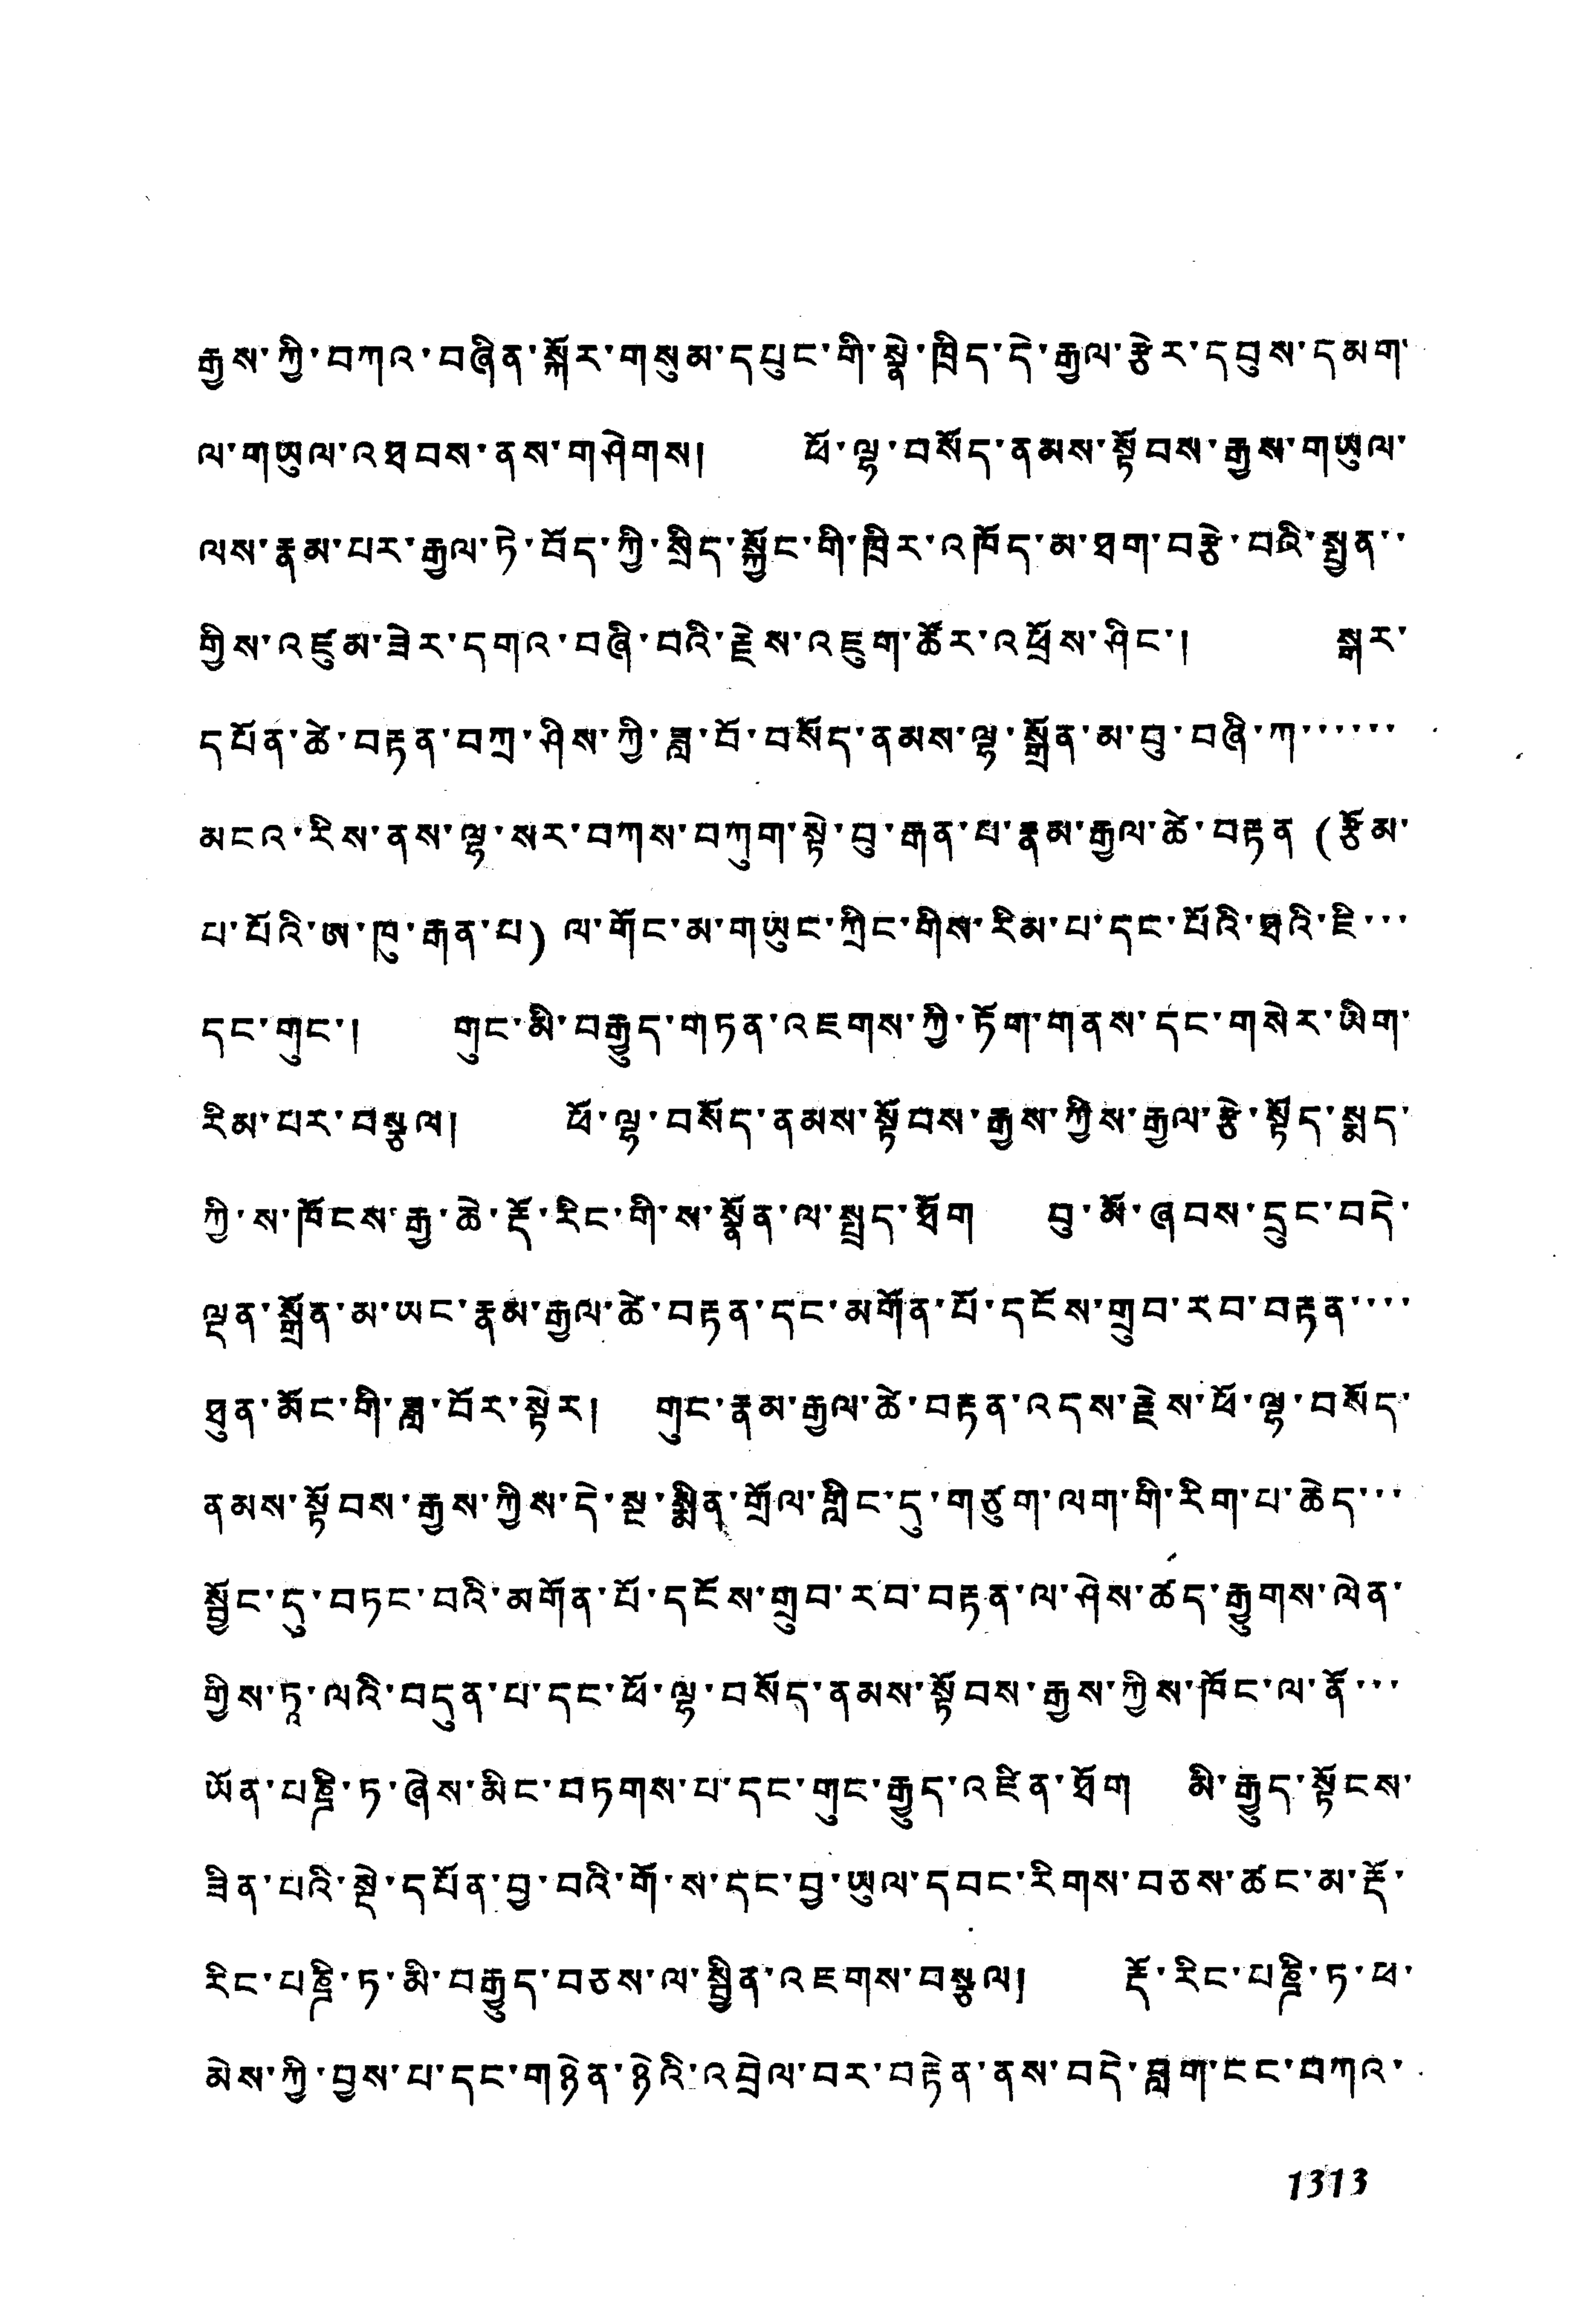རྒྱས་ཀྱི་བཀའ་བཞིན་སྐོར་གསུམ་དཔུང་གི་སྣེ་ཁྲིད་དེ་རྒྱལ་རྩེར་དབུས་དམག་
ལ་གཡུལ་འཐབས་ནས་གཤེགས། ཕོ་ལྷ་བསོད་ནམས་སྟོབས་རྒྱས་གཡུལ་
ལས་རྣམ་པར་རྒྱལ་ཏེ་བོད་ཀྱི་སྲིད་སྐྱོང་གི་ཁྲིར་འཁོད་མ་ཐག་བརྩེ་བའི་སྤྱན་
གྱིས་འཛུམ་ཟེར་དགའ་བཞི་བའི་རྗེས་འཇུག་ཚོར་འཕྲོས་ཤིང་། སྒར་
དཔོན་ཚེ་བརྟན་བཀྲ་ཤིས་ཀྱི་ཟླ་བོ་བསོད་ནྣམས་ལྷ་སྒྲོན་མ་བུ་བཞི་ཀ་་་་་་
མངའ་རིས་ནས་ལྷ་སར་བཀས་བཀུག་སྟེ་བུ་རྒན་པ་རྣམ་རྒྱལ་ཚེ་བརྟན (རྩོམ་
པ་པོའི་ཨ་ཁུ་རྒན་པ) ལ་གོང་མ་གཡུང་ཀྲིང་གིས་རིམ་པ་དང་པོའི་ཐའི་ཇི་་་
དང་གུང་། གུང་མི་བརྒྱུད་གཏན་འཇགས་ཀྱི་ཏོག་གནས་དང་གསེར་ཡིག་
རིམ་པར་བསྩལ། ཕོ་ལྷ་བསོད་ནམས་སྟོབས་རྒྱས་ཀྱིས་རྒྱལ་རྩེ་སྟོད་སྨད་
ཀྱི་ས་ཁོངས་རྒྱ་ཆེ་རྡོ་རིང་གི་ས་སྣོན་ལ་སྤྱད་ཐོག བུ་མོ་ཞབས་དྲུང་བདེ་
ལྡན་སྒྲོན་མ་ཡང་རྣམ་རྒྱལ་ཚེ་བརྟན་དང་མགོན་པོ་དངོས་གྲུབ་རབ་བརྟན་་་་
ཐུན་མོང་གི་ཟླ་བོར་སྟེར། གུང་རྣམ་རྒྱལ་ཚེ་བརྟན་འདས་རྗེས་ཕོ་ལྷ་བསོད་
ནམས་སྟོབས་རྒྱས་ཀྱིས་དེ་སྔ་སྨིན་གྲོལ་གླིང་དུ་གཙུག་ལག་གི་རིག་པ་ཆེད་་་
སྦྱོང་དུ་བཏང་བའི་མགོན་པོ་དངོས་གུབ་རབ་བརྟན་ལ་ཤེས་ཚད་རྒྱུགས་ལེན་
གྱིས་ཏཱ་ལའི་བདུན་པ་དང་ཕོ་ལྷ་བསོད་ནམས་སྟོབས་རྒྱས་ཀྱིས་ཁོང་ལ་ནོ་་་
ཡོན་པཎྜི་ཏ་ཞེས་མིང་བཏགས་པ་དང་གུང་རྒྱུད་འཛིན་ཐོག མི་རྒྱུད་སྟོངས་
ཟིན་པའི་སྡེ་དཔོན་བྱ་བའི་གོ་ས་དང་བྱ་ཡུལ་དབང་རིགས་བཅས་ཚང་མ་རྡོ་
རིང་པཎྜི་ཏ་མི་བརྒྱུད་བཅས་ལ་སྦྱིན་འཇགས་བསྩལ། རྡོ་རིང་པཎྜི་ཏ་ཕ་
མེས་ཀྱི་བྱས་པ་དང་གཉེན་ཉེའི་འབྲེལ་བར་བརྟེན་ནས་བདེ་བླག་ངང་བཀའ་
1313
